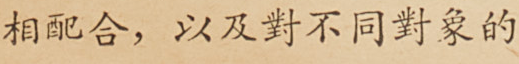相配合，以及對不同對象的
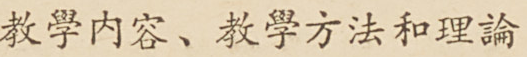教學內容、教學方法和理論
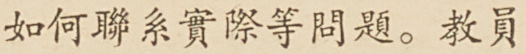如何聯繫實際等問題。教員
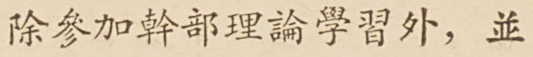除參加幹部理論學習外，並
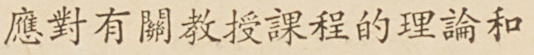應對有關教授課程的理論和
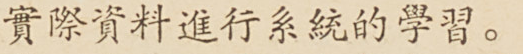實際資料進行系統的學習。
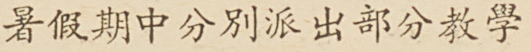暑假期中分別派出部分教學
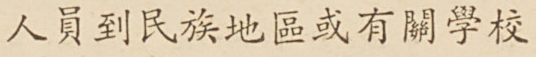人員到民族地區或有關學校
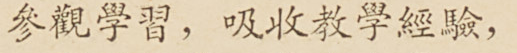參觀學習，吸收教學經驗，
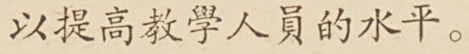以提高教學人員的水平。
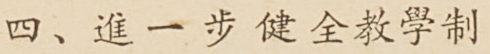四、進一步健全教學制
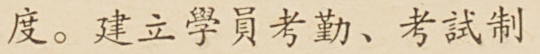度。建立學員考勤、考試制
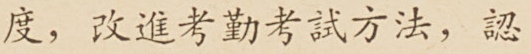度，改進考勤考試方法，認
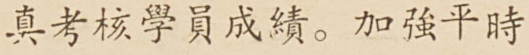真考核學員成績。加強平時
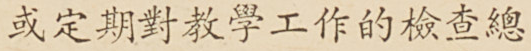或定期對教學工作的檢查總
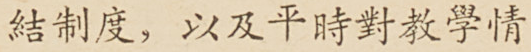結制度，以及平時對教學情
